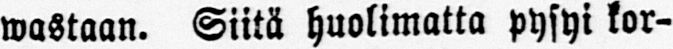wastaan. Siitä huolimatta pysyi kor-
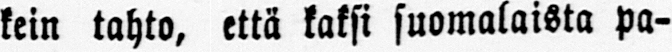kein tahto, että kaksi suomalaista pa-
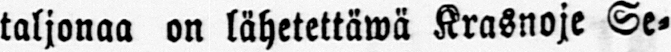taljonaa on lähetettäwä Krasnoje Se-
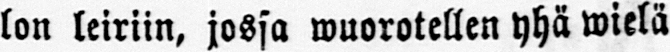lon leiriin, jossa wuorotellen yhä wielä
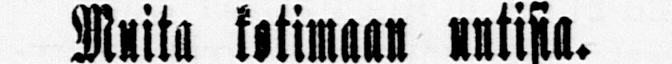Muita kotimaan untisia.
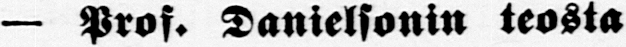— Prof. Danielsonin teosta
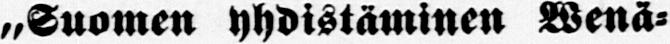„Suomen yhdistäminen Wenä-
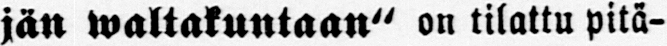jän waltakuntaan" on tilattu pitä-
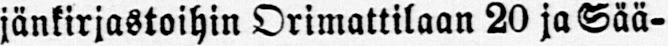jänkirjastoihin Orimattilaan 20 ja Sää-
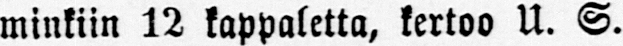minkiin 12 kappaletta, kertoo U. S.
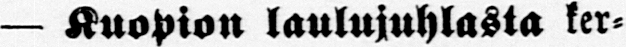— Kuopion laulujuhlasta ker-
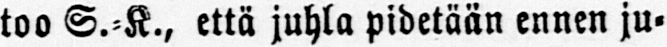too S.-K., että juhla pidetään ennen ju-
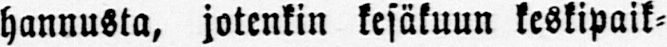hannusta, jotenkin kesäkuun keskipaik-
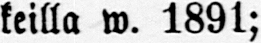keilla w. 1891;
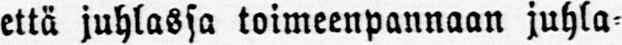että juhlassa toimeenpannaan juhla-
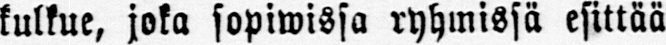kulkue, joka sopiwissa ryhmissä esittää
